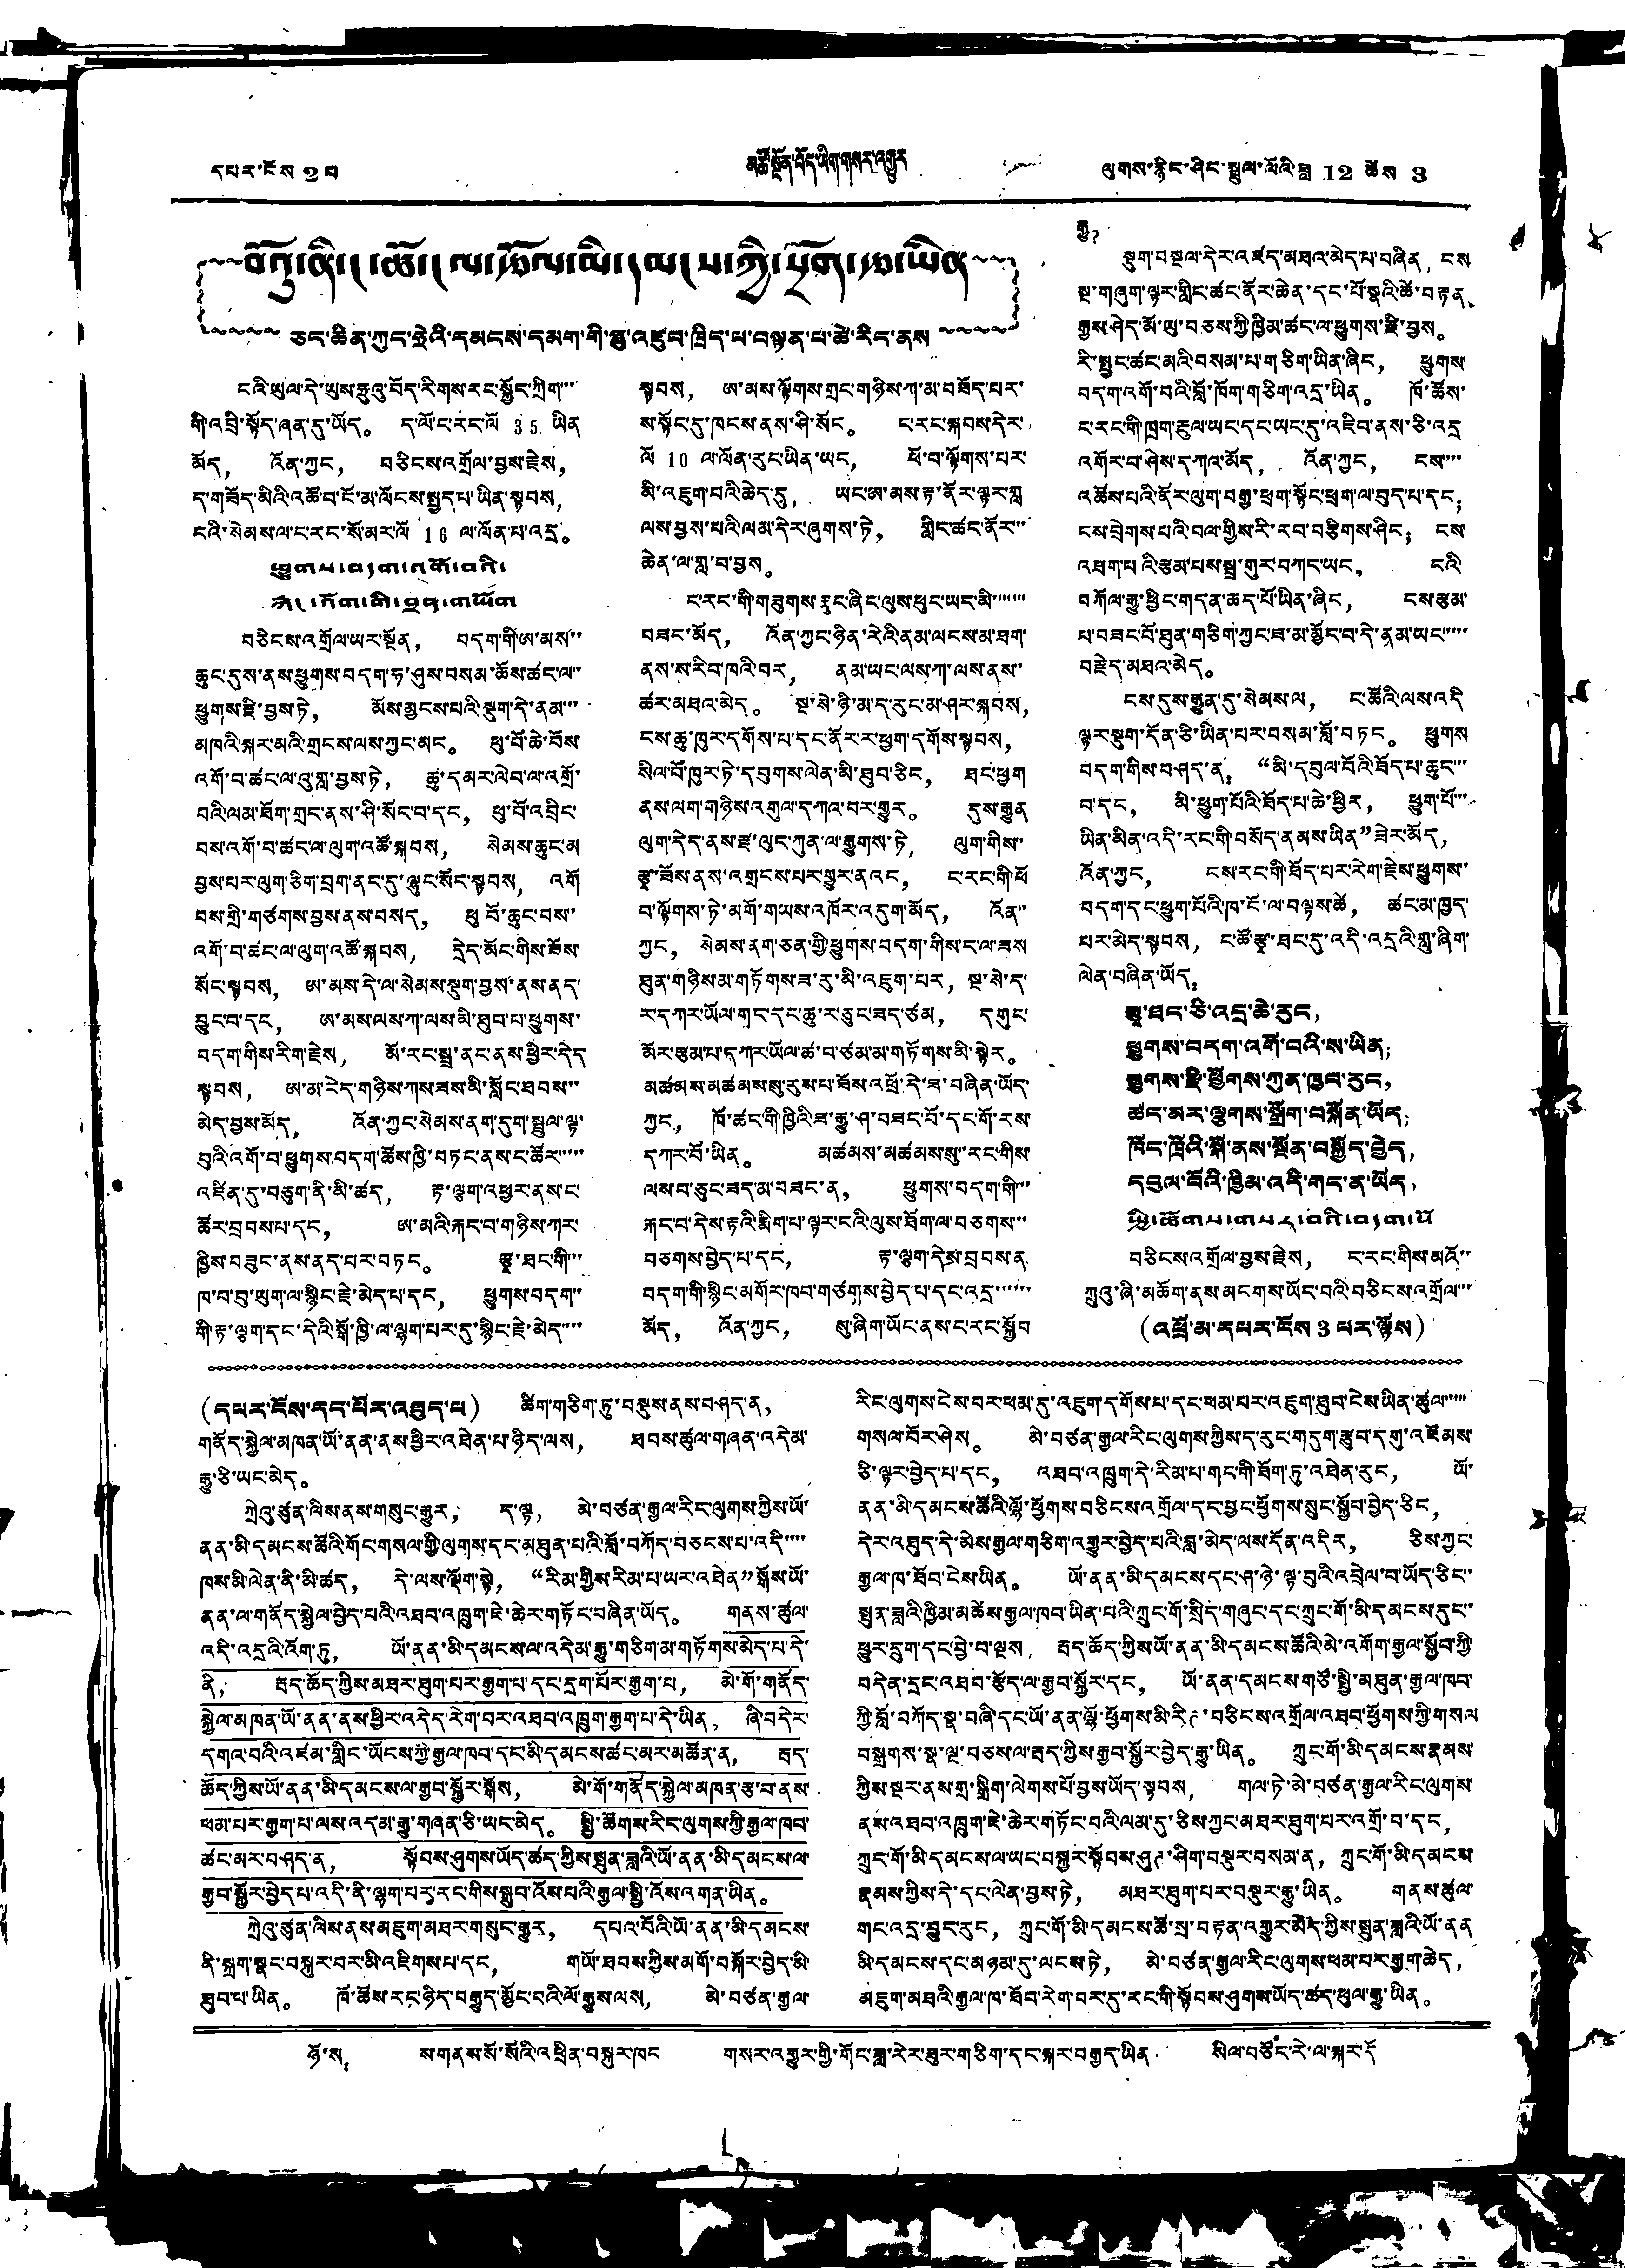དཔར་ངོས 2 པ མཆོ་སྔོན་བོད་ཡིག་གསར་འགྱུར ལུགས་རྙིང་ཤིང་སྦྲུལ་ལོའི་ཟླ 12 ཚེས 3
བོའུ་ནི་ང་ཚོ་ངལ་རྩོལ་མི་དམངས་ཀྱི་སྲོག་རྩ་ཡིན
ཅང་ཆིན་ཀུང་ཧྲེའི་དམངས་དམག་གི་ཧྥུ་འཛུབ་ཁྲིད་ལ་བསྟན་པ་ཚེ་རིང་ནས
ངའི་ཡུལ་དེ་ཡུས་ཧྲུའུ་བོད་རིགས་རང་སྐྱོང་ཀྲིག་་་་
གི་འབྲི་སྟོད་ཞན་དུ་ཡོད。 ད་ལོ་ང་རང་ལོ 35 ཡིན
མོད， འོན་ཀྱང， བཅིངས་འགྲོལ་བྱས་རྗེས，
ད་གཟོད་མིའི་འཚོ་བ་ངོ་མ་ལོངས་སྤྲད་པ་ཡིན་སྟབས，
ངའི་སེམས་ལ་ང་རང་སོ་མར་ལོ 16 ལ་ལོན་པ་འདྲ。
ཕྱུགས་བདག་འགོ་བའི་
རྐང་འོག་གི་བྲན་གཡོག
བཅིངས་འགྲོལ་ཡར་སྔོན， བདག་གི་ཨ་མས་་
ཆུང་དུས་ནས་ཕྱུགས་བདག་ཏུ་ཤུས་བསམ་ཚོས་ཚང་ལ་་
ཕྱུགས་རྫི་བྱས་ཏེ， མོས་མྱངས་པའི་སྡུག་དེ་ནམ་་་
མཁའི་སྐར་མའི་གྲངས་ལས་ཀྱང་མང。 ཕུ་བོ་ཆེ་བོས་
འགོ་བ་ཚང་ལ་འུ་གྲ་བྱས་ཏེ， ཆུ་དམར་ལབ་ལ་འགྲ་
བའི་ལམ་ཐོག་གྲང་ནས་ཤི་སོང་བ་དང， ཕུ་བོ་འབྲིང་
བས་འགོ་བ་ཚང་ལ་ལུག་འཚོ་སྐབས， སེམས་ཆུང་མ་
བྱས་པར་ལུག་ཅིག་བྲག་ནང་དུ་ལྷུང་སོང་སྟབས， འགོ་
བས་གྲི་གཙགས་བྱས་ནས་བསད， ཕུ བོ་ཆུང་བས་
འགོ་བ་ཚང་ལ་ལུག་འཚོ་སྐབས， དྲེད་མོང་གིས་ཟོས་
སོང་སྟབས， ཨ་མས་དེ་ལ་སེམས་སྡུག་བྱས་ནས་ནད་
བྱུང་བ་དང， ཨ་མས་ལས་ཀ་ལས་མི་ཐུབ་པ་ཕྱུགས་་
བདག་གིས་རིག་རྗེས，མོ་རང་སྦྲ་ནང་ནས་ཕྱིར་དེད་
སྟབས，ཨ་མ་རེད་གཉིས་ཀས་ཟས་མི་སློང་ཐབས་་
མེད་བྱས་མོད，འོན་ཀྱང་སེམས་ནག་དུག་སྦྲུལ་ལྟ་
བུའི་འགོ་བ་ཕྱུགས་བདག་ཚོས་ཁྱི་བཏང་ནས་ང་ཚོར་་་་་
འཛིན་དུ་བཅུག་ནི་མི་ཚད，རྟ་ལྕག་འཕྱུར་ནས་ང་
ཚོར་བྲབས་པ་དང，ཨ་མའི་རྐད་བ་གཉིས་ཀར་
ཁྱིས་བཟུང་ནས་ནད་པར་བཏང。རྩྭ་ཐང་གི་་་
ཁ་བ་བུ་ཡུག་ལ་སྙིང་རྗེ་མེད་པ་དང，ཕྱུགས་བདག་་
གི་རྟ་ལྕག་དང་དེའི་སྒོ་ཁྱི་ལ་ལྷག་པར་དུ་སྙིང་རྗེ་མེད་་་་
སྟབས，ཨ་མས་ལྟོགས་གྲང་གཉིས་ཀ་མ་བཟོད་པར་
ས་སྟོང་དུ་ཁངས་ནས་ཤི་སོང。ང་རང་སྐབས་དེར་
ལོ 10 ལ་ལོན་རུང་ཡིན་ཡང，ཕོ་བ་ལྟོགས་པར་
མི་འཇུག་པའི་ཆེད་དུ，ཡང་ཨ་མས་རྟ་ནོར་ལྟར་གླ་
ལས་བྱས་པའི་ལམ་དེར་ཞུགས་ཏེ，གླིང་ཚད་ནོར་་་
ཆེན་ལ་གླ་བ་བྱས。
ང་རང་གི་གཟུགས་རྩུང་ཞིང་ལུས་ཕུང་ཡང་མི་་་་་་་
བཟང་མོད，འོན་ཀྱང་ཉིན་རེའི་ནམ་ལངས་མ་ཐག་
ནས་ས་རིབ་ཁའི་བར，ནམ་ཡང་ལས་ཀ་ལས་ནུས་
ཚར་མཐའ་མེད。སྔ་སེ་ཉི་མ་ད་རུང་མ་ཤར་སྐབས，
ངས་ཆུ་ཁུར་དགོས་པ་དང་ནོར་ར་ཕྱག་དགོས་སྟབས，
སིལ་བོ་ཁུར་ཏེ་དབུགས་ལེན་མི་ཐུབ་ཅིང，ཐང་ཕྱག
ནས་ལག་གཉིས་འགུལ་དཀའ་བར་གྱུར。དུས་རྒྱུན
ལུག་དེད་ནས་རྫ་ལུང་ཀུན་ལ་རྒྱུགས་ཏེ，ལུག་གིས་
རྩྭ་ཟོས་ནས་འགྲངས་པར་གྱུར་ནའང，ང་རང་གི་ཕོ་
བ་ལྟོགས་ཏེ་མགོ་གཡས་འཁོར་འདུག་མོད，འོན་་
ཀྱང，སེམས་ནག་ཅན་གྱི་ཕྱུགས་བདག་གིས་ད་ལ་ཟས
ཐུན་གཉིས་མ་གཏོགས་ཟ་རུ་མི་འཇུག་པར，སྔ་སེ་ད་
ར་དཀར་ཡོལ་གང་དང་ཆུ་ར་ཅུང་ཟད་ཙམ，དགུང་
མོར་རྩམ་པ་དཀར་ཡོལ་ཚ་བ་ཙམ་མ་གཏོགས་མི་སྟེར。
མཚམས་མཚམས་སུ་རུས་པ་ཟོས་འཕྲོ་དེ་ཟ་བཞིན་ཡོད་
ཀྱང，ཁོ་ཚང་གི་ཁྱིའི་ཟ་རྒྱུ་ཤ་བཟང་པོ་དང་གོ་རས་
དཀར་བོ་ཡིན。མཚམས་མཚམས་སུ་རང་གིས་
ལས་པ་ཅུང་ཟད་མ་བཟང་ན，ཕྱུགས་བདག་གི་་་
རྐང་བ་དེས་རྟའི་རྨིག་པ་ལྟར་ངའི་ལུས་ཐོག་ལ་བཅགས་་་
བཅགས་བྱེད་པ་དང，རྟ་ལྕག་དེས་བྲབས་ན་
བདག་གི་སྙིང་མགོར་ཁབ་གཙགས་བྱེད་པ་དང་འདྲ་་་་་་
མོད，འོན་ཀྱང，སུ་ཞིག་ཡོང་ནས་ང་རང་སྐྱོབ་
རྒྱུ？
སྡུག་བསྔལ་དེར་འཛད་མཐའ་མེད་པ་བཞིན，ངས
སྔ་གཞུག་ལྟར་གླིང་ཚང་ནོར་ཆེན་དང་པོ་སྣའི་ཚེ་བརྟན、
རྒྱུས་ཤེད་མོ་ཡུ་བཅས་ཀྱི་ཁྱིམ་ཚང་ལ་ཕྱུགས་རྫི་བྱས。
རི་སྤྱང་ཚང་མའི་བསམ་པ་གཅིག་ཡིན་ཞིང，ཕྱུགས་
བདག་འགོ་བའི་བློ་ཁོག་གཅིག་འདྲ་ཡིན。ཁོ་ཚོས་
ང་རང་གི་ཁྲག་རྡུལ་ཡང་དང་ཡང་དུ་འཇིབ་ནས་ཅི་འདྲ
འགོར་བ་ཤེས་དཀའ་མོད， འོན་ཀྱང， ངས་་་་
འཚོས་པའི་ནོར་ལུག་བརྒྱ་ཕྲག་སྟོང་ཕྲག་ལ་བུད་པ་དང；
ངས་བྲེགས་པའི་བལ་གྱིས་རི་རབ་བརྩིགས་ཤིང；ངས་
འཐག་པའི་རྩམ་པས་སྤྲ་གུར་བཀང་ཡང， ངའི་
བཀོལ་རྒྱུ་ཕྱིང་གདན་ཆད་པོ་ཡིན་ཞིང， ངས་རྩམ་
པ་བཟང་པོ་ཐུན་གཅིག་ཀྱང་ཟ་མ་མྱོང་བ་དེ་ནམ་ཡང་་་་་
བརྗེད་མཐའ་མེད。
ངས་དུས་རྒྱུན་དུ་སེམས་ལ， ང་ཚོའི་ལས་འདི
ལྟར་སྡུག་དོན་ཅི་ཡིན་པར་བསམ་བློ་བཏང。 ཕྱུགས་
བདག་གིས་བཤད་ན： “མི་དབུལ་བོའི་ཐོད་པ་ཆུང་་་
བ་དང， མི་ཕྱུག་པོའི་ཐོད་པ་ཆེ་ཕྱིར， ཕྱུག་པོ་་་
ཡིན་མིན་འདི་རང་གི་བསོད་ནམས་ཡིན”ཟེར་མོད，
འོན་ཀྱང， ངས་རང་གི་ཐོད་པར་རེག་རྗེས་ཕྱུགས་་
བདག་དང་ཕྱུག་པོའི་ཁ་ངོ་ལ་བལྟས་ཚེ， ཚང་མ་ཁྱད་
པར་མེད་སྟབས， ང་ཚོ་རྩྭ་ཐང་དུ་འདི་འདྲའི་གླུ་ཞིག་
ལེན་བཞིན་ཡོད：
ལྩྭ་ཐང་ཅི་འདྲ་ཆེ་རུང；
ཕྱུགས་བདག་འགོ་བའི་ས་ཡིན；
ཕྱུགས་རྫེ་ཕྱོགས་ཀུན་ཁྱབ་རུང，
ཚད་མར་ལྕགས་སྒྲོག་བསྐྲོན་ཡོད；
ཁོང་ཁྲོའི་སྒོ་ནས་སྔོན་བསྐྱོད་བྱེད，
དབུལ་བོའི་ཁྱིམ་འདི་གང་ན་ཡོད，
སྤྱི་ཚོགས་གསར་བའི་བདག་པོ
བཅིངས་འགྲོལ་བྱས་རྗེས， ང་རང་གིས་མའོ་་
ཀྲུའུ་ཞི་མཆོག་ནས་མངགས་ཡོང་བའི་བཅིངས་འགྲོལ་་་
(འཕྲོ་མ་དཔར་ངོས 3 པར་ལྟོས)
(དཔར་ངོས་དང་པོར་འཐུད་ལ)
ཚིག་གཅིག་ཏུ་བསྡུས་ནས་བཤད་ན，
གནོད་སྐྱེལ་མཁན་ཡོ་ནན་ནས་ཕྱིར་འཐེན་པ་ཉིད་ལས， ཐབས་ཚུལ་གཞན་འདེམ་
རྒྱུ་ཅི་ཡང་མེད。
ཀྲེའུ་ཙུན་ལིས་ནས་གསུང་རྒྱུར， ད་ལྟ， མེ་བཙན་རྒྱལ་རིང་ལུགས་ཀྱིས་ཡོ་
ནན་མི་དམངས་ཚོའི་གོང་གསལ་གྱི་ལུགས་དང་མཐུན་པའི་བློ་བཀོད་བཅངས་པ་འདི་་་་
ཁས་མི་ལེན་ནི་མི་ཚད， དེ་ལས་ལྡོག་སྟེ， “རིམ་གྱིས་རིམ་པ་ཡར་འཐེན”སྒོས་ཡོ་
ནན་ལ་གནོད་སྐྱེལ་བྱེད་པའི་འཐབ་འཁྲུག་ཇེ་ཆེར་གཏོང་བཞིན་ཡོད。 གནས་ཚུལ་
འདི་འདྲའི་འོག་ཏུ， ཡོ་ནན་མི་དམངས་ལ་འདེམ་རྒྱུ་གཅིག་མ་གཏོགས་མེད་པ་དེ་
ནི， རྦད་ཆོད་ཀྱིས་མཐར་ཐུག་པར་རྒྱུག་པ་དང་དྲག་པོར་རྒྱུག་པ， མེ་གོ་གནོད་
སྐྱེལ་མཁན་ཡོ་ནན་ནས་ཕྱིར་འདེད་རེག་བར་འཐབ་འཁྲུག་རྒྱུག་པ་དེ་ཡིན， ཞི་བདེར་
དགའ་བའི་འཛམ་གླིང་ཡོངས་ཀྱི་རྒྱལ་ཁབ་དང་མི་དམངས་ཚང་མར་མཚོན་ན， རྦད་
ཆོད་ཀྱིས་ཡོ་ནན་མི་དམངས་ལ་རྒྱབ་སྐྱོར་སྒོས， མེ་གོ་གནོད་སྐྱེལ་མཁན་རྩ་བ་ནས་
ཕམ་པར་རྒྱག་པ་ལས་འདམ་རྒྱུ་གཞན་ཅི་ཡང་མེད。 སྤྱི་ཚོགས་རིང་ལུགས་ཀྱི་རྒྱལ་ཁབ་
ཚང་མར་བཤད་ན， སྟོབས་ཤུགས་ཡོད་ཚད་ཀྱིས་སྤུན་ཟླའི་ཡོ་ནན་མི་དམངས་ལ་
རྒྱབ་སྐྱོར་བྱེད་པ་འདི་ནི་ལྷག་པར་རང་གིས་སྒྲུབ་འོས་པའི་རྒྱལ་སྤྱི་འོས་འགན་ཡིན。
ཀྲེའུ་ཙུན་ལིས་ནས་མཇུག་མཐར་གསུང་རྒྱུར， དཔའ་བོའི་ཡོ་ནན་མི་དམངས་
ནི་སྐྲག་སྣང་བསྐུར་བར་མི་འཇིགས་པ་དང， གཡོ་ཐབས་ཀྱིས་མགོ་བསྐོར་བྱེད་མི་
ཐུབ་པ་ཡིན。 ཁོ་ཚོས་རང་ཉིད་བརྒྱུད་མྱོང་བའི་ལོ་རྒྱུས ལས， མེ་བཙན་རྒྱལ་
རིང་ལུགས་ངེས་བར་ཕམ་དུ་འཇུག་དགོས་པ་དང་ཕམ་པར་འཇུག་ཐུབ་ངེས་ཡིན་ཚུལ་་་་་
གསལ་བོར་ཤེས。 མེ་བཙན་རྒྱལ་རིང་ལུགས་ཀྱིས་ད་རུང་གདུག་རྩུབ་དགུ་འཛོམས་
ཅི་ལྟར་བྱེད་པ་དང， འཐབ་འཁྲུག་དེ་རིམ་པ་གང་གི་ཐོག་ཏུ་འཐེན་རུང， ཡོ་
ནན་མི་དམངས་ཚོའི་ལྷོ་ཕྱོགས་བཅིངས་འགྲོལ་དང་བྱང་ཕྱོགས་སྲུང་སྐྱོབ་བྱེད་ཅིང，
དེར་འཐུད་དེ་མེས་རྒྱལ་གཅིག་འགྱུར་བྱེད་པའི་བླ་མེད་ལས་དོན་འདིར， ཅིས་ཀྱང་
རྒྱལ་ཁ་ཐོབ་ངེས་ཡིན。 ཡོ་ནན་མི་དམངས་དང་ཤ་ཉེ་ལྟ་བུའི་འབྲེལ་བ་ཡོད་ཅིང་
སྤུན་ཟླའི་ཁྱིམ་མཚེས་རྒྱལ་ཁབ་ཡིན་པའི་ཀྲུང་གོ་སྲིད་གཞུང་དང་ཀྲུང་གོ་མི་དམངས་དུང་
ཕྱུར་དྲུག་དང་བྱེ་བ་ལྔས， རྦད་ཆོད་ཀྱིས་ཡོ་ནན་མི་དམངས་ཚོའི་མེ་འགོག་རྒྱལ་སྐྱོབ་ཀྱི་
བདེན་དྲང་འཐབ་རྩོད་ལ་རྒྱབ་སྐྱོར་དང， ཡོ་ནན་དམངས་གཙོ་སྤྱི་མཐུན་རྒྱལ་ཁབ་
ཀྱི་བློ་བཀོད་སྣ་བཞི་དང་ཡོ་ནན་ལྷོ་ཕྱོགས་མི་རིཊ་བཅིངས་འགྲོལ་འཐབ་ཕྱོགས་ཀྱི་གསལ
བསྒྲགས་སྣ་ལྔ་བཅས་ལ་རྦད་ཀྱིས་རྒྱབ་སྐྱོར་བྱེད་རྒྱུ་ཡིན。 ཀྲུང་གོ་མི་དམངས་རྣམས་
ཀྱིས་སྔར་ནས་གྲ་སྒྲིག་ལེགས་པོ་བྱས་ཡོད་སྟབས， གལ་ཏེ་མེ་བཙན་རྒྱལ་རིང་ལུགས་
ནས་འཐབ་འཁྲུག་རེ་ཆེར་གཏོང་བའི་ལམ་དུ་ཅིས་ཀྱང་མཐར་ཐུག་པར་འགྲོ་བ་དང，
ཀྲུང་གོ་མི་དམངས་ལ་ཡང་བསྐྱར་སྟོབས་ཤུཊ་ཤིག་བསྡུར་བསམ་ན， ཀྲུང་གོ་མི་དམངས་
རྣམས་ཀྱིས་དེ་དང་ལེན་བྱས་ཏེ， མཐར་ཐུག་པར་བསྡུར་རྒྱུ་ཡིན。 གནས་ཚུལ་
གང་འདྲ་བྱུང་རུང， ཀྲུང་གོ་མི་དམངས་ཚོ་སྲ་བརྟན་འགྱུར་མེད་ཀྱིས་སྤུན་ཟླའི་ཡོ་ནན་
མི་དམངས་དང་མཉམ་དུ་ལངས་ཏེ， མེ་བཙན་རྒྱལ་རིང་ལུགས་ཕམ་པར་རྒྱག་ཆེད，
མཇུག་མཐའི་རྒྱལ་ཁ་ཐོབ་རེག་བར་དུ་རང་གི་སྟོབས་ཤུགས་ཡོད་ཚད་ཕུལ་རྒྱུ་ཡིན。
ཉོ་ས： ས་གནས་སོ་སོའི་འཕྲིན་བསྐུར་ཁང གསར་འགྱུར་གྱི་གོང་ཟླ་རེར་ཟུར་གཅིག་དང་སྐར་བརྒྱད་ཡིན སིལ་བཙོང་རེ་ལ་སྐར་དོ་
